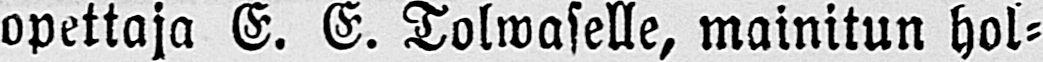opettaja E. E. Tolwaselle, mainitun hol-
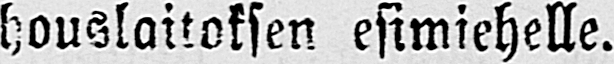houslaitoksen esimiehelle.
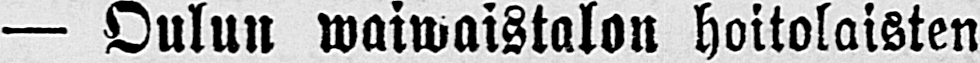— Oulun waiwaistalon hoitolaisten
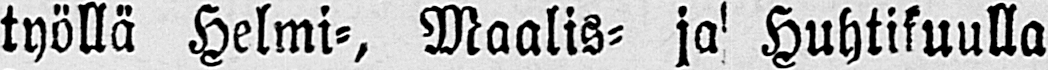työllä Helmi-, Maalis- ja Huhtikuulla
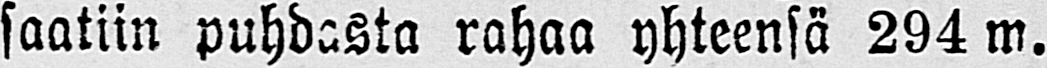saatiin puhdasta rahaa yhteensä 294 m.
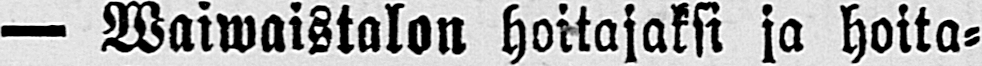— Waiwaistalon hoitajaksi ja hoita-
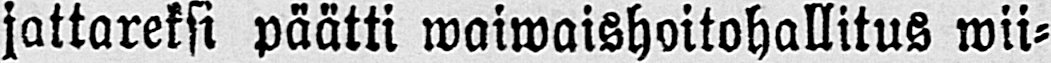jattareksi päätti waiwaishoitohallitus wii-
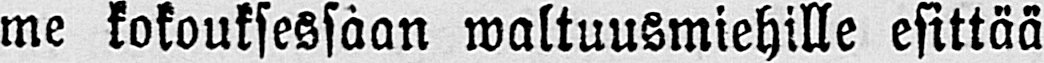me kokouksessaan waltuusmiehille esittää
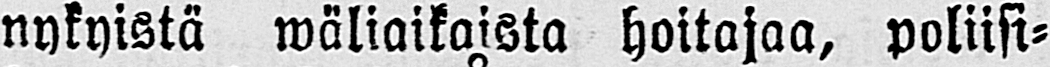nykyistä wäliaikaista hoitajaa, poliisi-
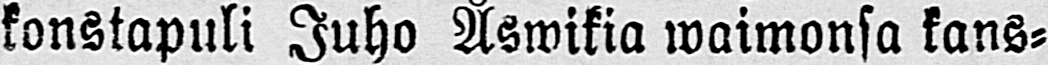konstapuli Juho Åswikia waimonsa kans-
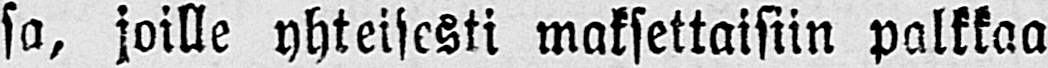sa, joille yhteisesti maksettaisiin palkkaa
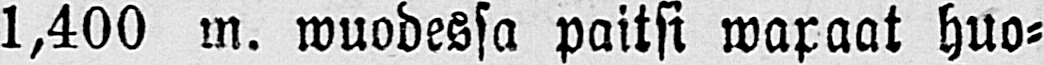1,400 m. wuodessa paitsi waraat huo-
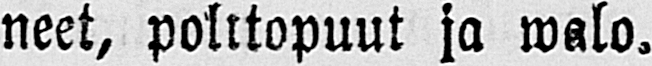neet, polttopuut ja walo.
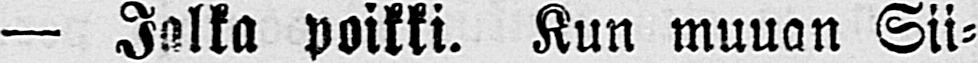— Jalka poikki. Kun muuan Sii-
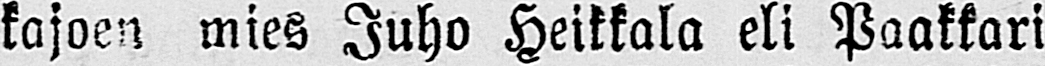kajoen mies Juho Heikkala eli Paakkari
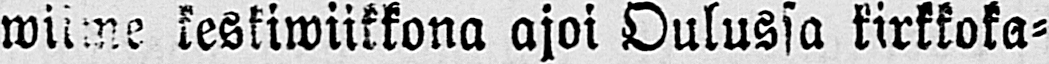wiime keskiwiikkona ajoi Oulussa kirkkoka-
